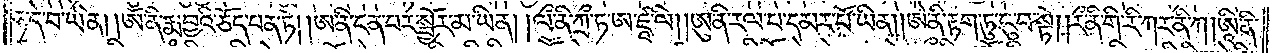ཧ་དེ་བ་ཡིན། །ཨོཾ་ནི་རྨ་བྱའི་ཅོད་པན་ཏེ། །ཨ་ནི་ངན་པར་སྦྱོར་མ་ཡིན། །ལྀ་ནི་ཀྲྀ་ཏ་ཨ་ཛཱ་ལི། །ཨུ་ནི་རལ་པ་དམར་པོ་ཡིན། །ཨེ་ནི་རྟག་ཏུ་ངུ་བ་སྟེ། །རྀ་ནི་གི་རི་ཀར་ནི་ཀ །ཨཱི་ནི་
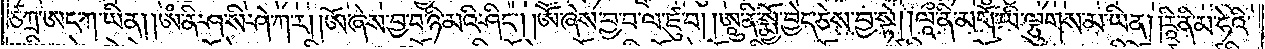ཙཀྲ་ཨང་ཀ་ཡིན། །ཨཾ་ནི་ཤ་སི་ཤེ་ཀ་ར། །ཨོ་ཞེས་བྱ་བ་ཉི་མའི་ཤིང༌། །ཨོཾ་ཞེས་བྱ་བ་ལ་ཛུ་བ། །ཨཱུ་ནི་སྨྱོ་བྱེད་ཅེས་བྱ་སྟེ། །ལཱྀ་ནི་མགོ་ཡི་ལྕུགས་མ་ཡིན། །རཱི་ནི་མ་ཧེའི་
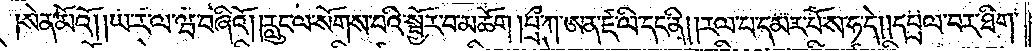སེན་མོའོ། །ཡ་ར་ལ་ཝ་བཞིའོ། །རླུང་ལ་སོགས་པའི་སྦྱོར་བ་མཆོག །པྲྀ་ཀ་ཨན་ཛ་ལི་དང་ནི། །རལ་པ་དམར་པོ་ས་ཧ་དེ། །དཔྲལ་བར་ཐིག་
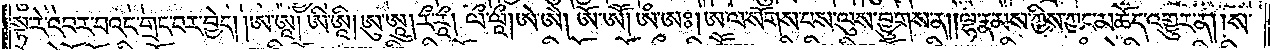སྟ་རེ་འབར་བའང་གྲང་བར་བྱེད། །ཨ་ཨཱ། ཨི་ཨཱི། ཨུ་ཨཱུ། རྀ་རཱྀ། ལྀ་ལཱྀ། ཨེ་ཨཻ། ཨོ་ཨཽ། ཨཾ་ཨཿ། ཨ་ལ་སོགས་པས་ལུས་བྱུགས་ན། །ལྷ་རྣམས་ཀྱིས་ཀྱང་མཆོད་འགྱུར་ན། །ས་
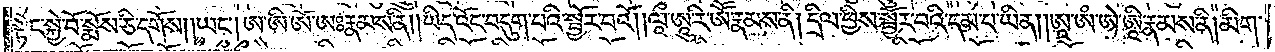སྟེང་སྐྱེ་བོ་སྨོས་ཅི་དགོས། །ཡང༌། ཨ་ཨི་ཨོ་ཨཿརྣམས་ནི། །ཡིད་འོང་བདུག་པའི་སྦྱོར་བའོ། །ལཱྀ་ཨཱུ་རི་ཨཽ་རྣམས་ནི། དྲིལ་ཕྱིས་སྦྱོར་བའི་དམ་པ་ཡིན། །ཨཱ་ཨཾ་ཨེ་ཨཱི་རྣམས་ནི། མིག་
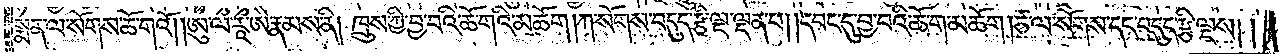སྨན་ལ་སོགས་ཆོ་གའོ། །ཨུ་ལྀ་རཱྀ་ཨཻ་རྣམས་ནི། ཁྲུས་ཀྱི་བྱ་བའི་ཆོ་གའི་མཆོག །ཀ་སོགས་བདུད་རྩི་ལྔ་ལྡན་པ། །དབང་དུ་བྱ་བའི་ཆོ་ག་མཆོག །ཙ་ལ་སོགས་དང་བདུད་རྩི་ལྔས། །
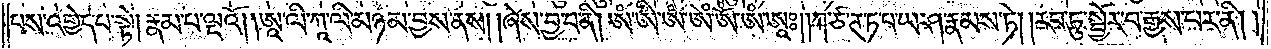པས་འགྱེད་པ་སྟེ། རྣམ་པ་ལྔའོ། །ཨཱ་ལི་ཀཱ་ལི་མཉམ་བྱས་ནས། །ཞེས་བྱ་བ་ནི། ཨཾ་ཨིཾ་ཨཾ་ཨེཾ་ཨོཾ་ཨཾ་ཨཱཿ། །ཀ་ཙ་ཊ་ཏ་བ་ཡ་ཤ་རྣམས་ཏེ། །རབ་ཏུ་སྦྱོར་བ་རྒྱས་པར་ནི། །
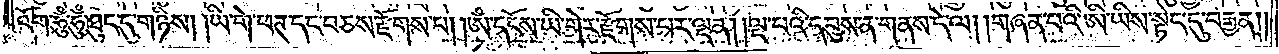འོག་ཧུཾ་ཧུཾ་ཐུང་དུ་གཉིས། །ཡི་གེ་ཕཊ་དང་བཅས་རྫོགས་པ། །ཨྃ་དངོས་ཡི་གེར་རྫོགས་པར་ལྡན། །ལྔ་པའི་དབུས་ན་གནས་དེ་ལ། །གཞན་པའི་ཨི་ཡིས་སྟེང་དུ་བརྒྱན༎
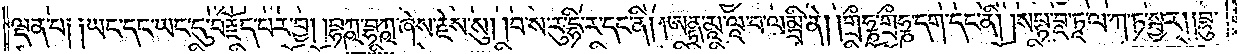ལྡན་པ༑ ༑ཡང་དང་ཡང་དུ་བརྗོད་པར་བྱ། །བྷཀྵ་བྷཀྵ་ཞེས་རྗེས་སུ། །བ་ས་རུ་དྷི་ར་དང་ནི། །ཨནྟྲ་མཱ་ལཱ་བ་ལ་སྨི་ནེ། །གྲྀཧྞ་གྲྀཧྞ་དག་དང་ནི། །སཔྟ་བཱ་ཏཱ་ལ་ཀ་ཏ་སྦྱར། །བྷུ་
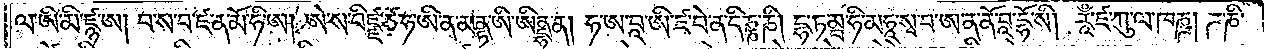ལ་ཨི་མི་ཛྙ་ཨ། བ་ས་བ་ཛ་ན་མོ་ཧི་ཨ། ཨེ་ས་བིཛྫ་ཙ་ཧ་ཨི་ན་མནྟ་ཨི་ཨིནྡྷ་ན། ཧ་ཨ་བཱ་ཨི་ཛ་བེ་ན་དིཎྞ་ཎི། དྷ་ཏམྦྷ་ཧི་མཧཱ་སྭ་བ་ཨ་ན་ནོ་བཱ་དྷོ་སི། རཱྃ་ཛ་ཀུ་ལ་ཁཎྜ། ཌ་ཎི་
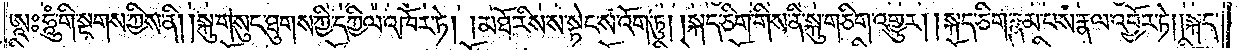ཨཱཿཧཱུཾ་གི་སྔགས་ཀྱིས་ནི། །སྐུ་གསུང་ཐུགས་ཀྱི་དཀྱིལ་འཁོར་ཏེ། །མཐོ་རིས་ས་སྟེང་ས་འོག་ཏུ། །སྐད་ཅིག་གིས་ནི་སྐུ་གཅིག་འགྱུར། །སྐད་ཅིག་རྣམ་པས་རྣལ་འབྱོར་ཏེ། །སྐད་
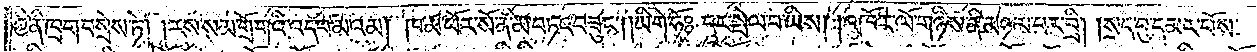ཀྱི་ནི་ཁྲག་བསྲེས་ཏེ། །རས་སམ་གྲོ་གའི་འདབ་མའམ། ཁམ་ཕོར་སོ་ནི་མ་བཏང་བཟུང༌། །ཡི་གེ་ཧོཿདང་སྤེལ་བ་ཡིས། །འཁོར་ལོ་གཉིས་ནི་མཉམ་པར་བྲི། །སྲད་བུ་དམར་པོས་
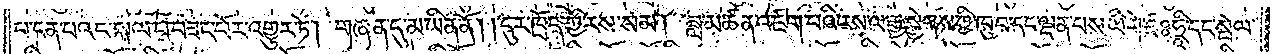པ་ངན་པའང་སྐལ་པ་བཟང་པོར་འགྱུར་ཏེ། གཞན་དུ་མ་ཡིན་ནོ། །དུར་ཁྲོད་ཀྱི་རས་སམ། ཟླ་མཚན་འཛག་པའི་རས་ལ་རྒྱ་སྐྱེགས་ཀྱི་ཁུ་བ་དང་ལྡན་པས་ཡི་གེ་ཛཿཧྲཱི་དང་སྤེལ་
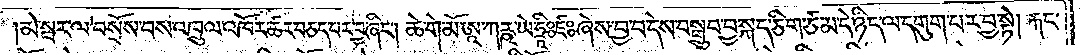མེ་སྦར་ལ་བསྲོས་བས་འཁྲུལ་འཁོར་ཚར་བཅད་པར་བྱ་ཞིང༌། ཆེ་གེ་མོ་ཨཱ་ཀཪྵ་ཡེ་ཧྲཱིཿཛཿཞེས་བྱ་བ་དེས་བསྒྲུབ་བྱ་སྐད་ཅིག་ཙམ་དེ་ཉིད་ལ་དགུག་པར་བྱ་སྟེ། རྐང་
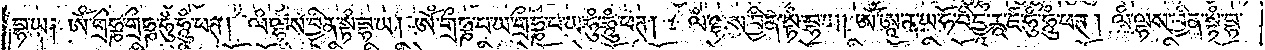བྷ་ཡ༑ ཨོཾ་གྲྀཧྞ་གྲྀཧྞ་ཧུཾ་ཧཱུཾ་ཕཊ། ལཾ་ལྷས་བྱིན་སྟཾ་བྷ་ཡ། ཨོཾ་གྲྀཧྞ་པ་ཡ་གྲྀཧྞ་པ་ཡ་ཧུཾ་ཧཱུཾ་ཕཊ། ལཾ་ལྷས་བྱིན་སྟཾ་བྷ་ཡ། ཨོཾ་ཨཱ་ན་ཡ་ཧོ་བིདྱཱ་རཱ་ཛ་ཧུཾ་ཧཱུཾ་ཕཊ། ལཾ་ལྷས་བྱིན་སྟཾ་བྷ་
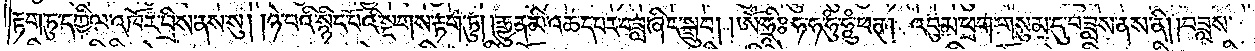རྟག་ཏུ་དཀྱིལ་འཁོར་བྲིས་ནས་སུ། །ཉེ་བའི་སྙིང་པོའི་སྔགས་རྟག་ཏུ། །རྒྱུན་མི་འཆད་པར་བཟླ་ཞིང་སྒྲུབ། །ཨོཾ་ཧྲཱིཿཧ་ཧ་ཧུཾ་ཧཱུཾ་ཕཊ། འབུམ་ཕྲག་གསུམ་དུ་བཟླས་ནས་ནི། །བཟླས་
